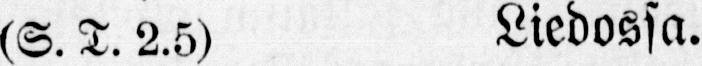(S. I. 2.5) Liedossa.
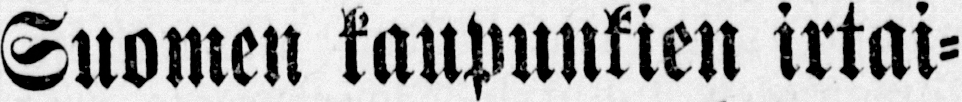Suomen kaupunkien irtai-
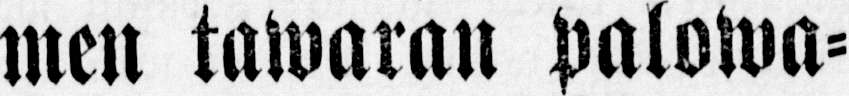men tawaran palowa-
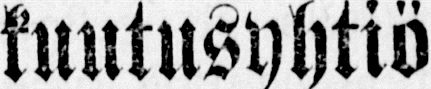kuutusyhtiö
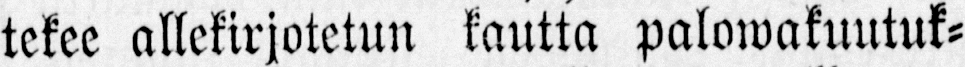tekee allekirjotetun kautta palowakuutuk-
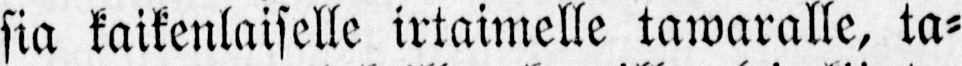sia kaikenlaiselle irtaimelle tawaralle, ta-
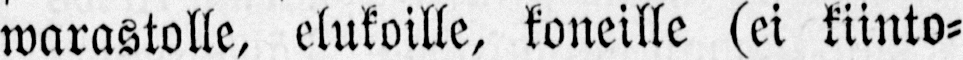warastolle, elukoille, koneille (ei kiinto-
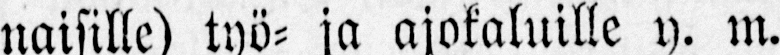naisille) työ- ja ajokaluille y. m.
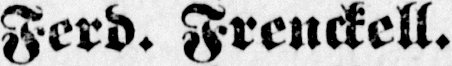Ferd. Frenckell.
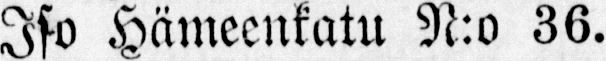Iso Hämeenkatu N:o 36.
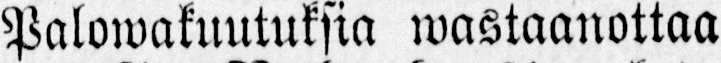Palowakuutuksia wastaanottaa
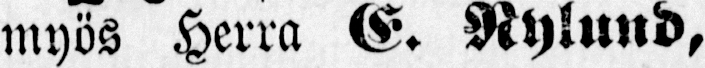myös Herra E. Nylund, Linnakatu
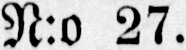N:o 27.
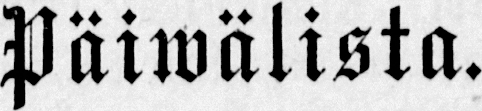Päiwälista.
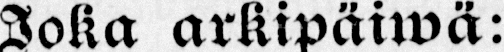Joka arkipäiwä:
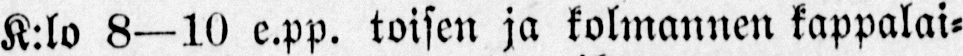K:lo 8—10 e.pp. toisen ja kolmannen kappalai-
